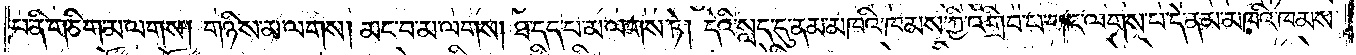པ་ནི་གཅིག་མ་ལགས། གཉིས་མ་ལགས། མང་བ་མ་ལགས། ཐ་དད་པ་མ་ལགས་ཏེ། དེའི་སླད་དུ་ནམ་མཁའི་ཁམས་ཀྱི་འགྲིབ་པ་གང་ལགས་པ་དེ་ནམ་མཁའི་ཁམས་
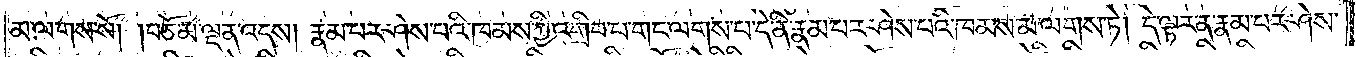མ་ལགས་སོ། །བཅོམ་ལྡན་འདས། རྣམ་པར་ཤེས་པའི་ཁམས་ཀྱི་འགྲིབ་པ་གང་ལགས་པ་དེ་ནི་རྣམ་པར་ཤེས་པའི་ཁམས་མ་ལགས་ཏེ། དེ་ལྟར་ན་རྣམ་པར་ཤེས་
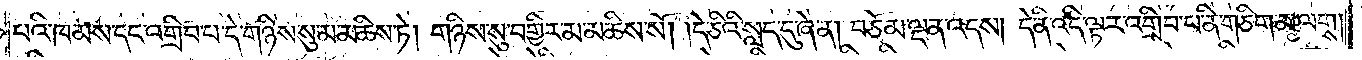པའི་ཁམས་དང་འགྲིབ་པ་དེ་གཉིས་སུ་མ་མཆིས་ཏེ། གཉིས་སུ་བགྱིར་མ་མཆིས་སོ། །དེ་ཅིའི་སླད་དུ་ཞེ་ན། བཅོམ་ལྡན་འདས། དེ་ནི་འདི་ལྟར་འགྲིབ་པ་ནི་གཅིག་མ་ལགས།
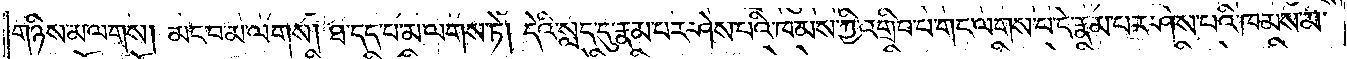གཉིས་མ་ལགས། མང་བ་མ་ལགས། ཐ་དད་པ་མ་ལགས་ཏེ། དེའི་སླད་དུ་རྣམ་པར་ཤེས་པའི་ཁམས་ཀྱི་འགྲིབ་པ་གང་ལགས་པ་དེ་རྣམ་པར་ཤེས་པའི་ཁམས་མ་
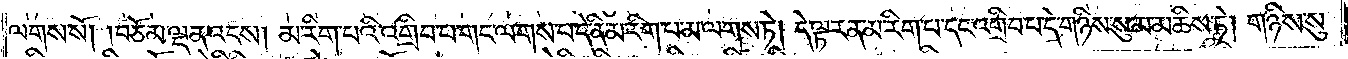ལགས་སོ། །བཅོམ་ལྡན་འདས། མ་རིག་པའི་འགྲིབ་པ་གང་ལགས་པ་དེ་ནི་མ་རིག་པ་མ་ལགས་ཏེ། དེ་ལྟར་ན་མ་རིག་པ་དང་འགྲིབ་པ་དེ་གཉིས་སུ་མ་མཆིས་ཏེ། གཉིས་སུ་
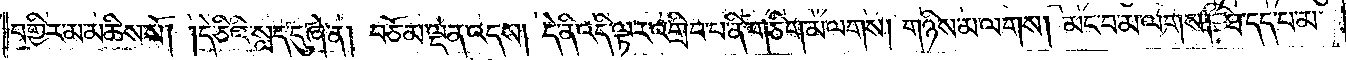བགྱིར་མ་མཆིས་སོ། །དེ་ཅིའི་སླད་དུ་ཞེ་ན། བཅོམ་ལྡན་འདས། དེ་ནི་འདི་ལྟར་འགྲིབ་པ་ནི་གཅིག་མ་ལགས། གཉིས་མ་ལགས། མང་བ་མ་ལགས། ཐ་དད་པ་མ་
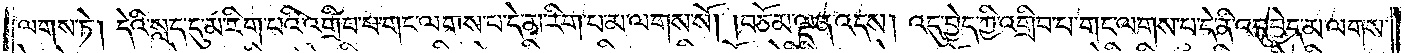ལགས་ཏེ། དེའི་སླད་དུ་མ་རིག་པའི་འགྲིབ་པ་གང་ལགས་པ་དེ་མ་རིག་པ་མ་ལགས་སོ། །བཅོམ་ལྡན་འདས། འདུ་བྱེད་ཀྱི་འགྲིབ་པ་གང་ལགས་པ་དེ་ནི་འདུ་བྱེད་མ་ལགས་
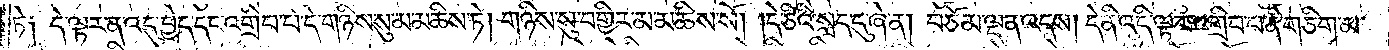ཏེ༑ དེ་ལྟར་ན་འདུ་བྱེད་དང་འགྲིབ་པ་དེ་གཉིས་སུ་མ་མཆིས་ཏེ། གཉིས་སུ་བགྱིར་མ་མཆིས་སོ། །དེ་ཅིའི་སླད་དུ་ཞེ་ན། བཅོམ་ལྡན་འདས། དེ་ནི་འདི་ལྟར་འགྲིབ་པ་ནི་གཅིག་མ་
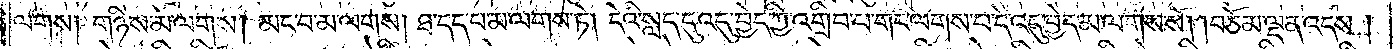ལགས། གཉིས་མ་ལགས། མང་བ་མ་ལགས། ཐ་དད་པ་མ་ལགས་ཏེ། དེའི་སླད་དུ་འདུ་བྱེད་ཀྱི་འགྲིབ་པ་གང་ལགས་པ་དེ་འདུ་བྱེད་མ་ལགས་སོ། །བཅོམ་ལྡན་འདས།
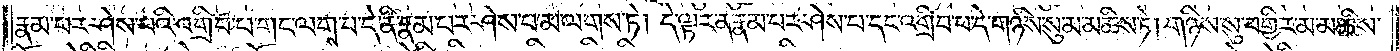རྣམ་པར་ཤེས་པའི་འགྲིབ་པ་གང་ལགས་པ་དེ་ནི་རྣམ་པར་ཤེས་པ་མ་ལགས་ཏེ། དེ་ལྟར་ན་རྣམ་པར་ཤེས་པ་དང་འགྲིབ་པ་དེ་གཉིས་སུ་མ་མཆིས་ཏེ་གཉིས་སུ་བགྱིར་མ་མཆིས་
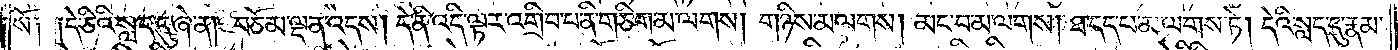སོ༑ ༑དེ་ཅིའི་སླད་དུ་ཞེ་ན། བཅོམ་ལྡན་འདས། དེ་ནི་འདི་ལྟར་འགྲིབ་པ་ནི་གཅིག་མ་ལགས། གཉིས་མ་ལགས། མང་བ་མ་ལགས། ཐ་དད་པ་མ་ལགས་ཏེ། དེའི་སླད་དུ་རྣམ་
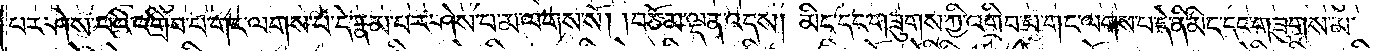པར་ཤེས་པའི་འགྲིབ་པ་གང་ལགས་པ་དེ་རྣམ་པར་ཤེས་པ་མ་ལགས་སོ། །བཅོམ་ལྡན་འདས། མིང་དང་གཟུགས་ཀྱི་འགྲིབ་པ་གང་ལགས་པ་དེ་ནི་མིང་དང་གཟུགས་མ་
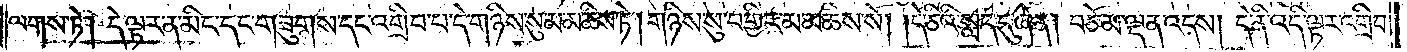ལགས་ཏེ། དེ་ལྟར་ན་མིང་དང་གཟུགས་དང་འགྲིབ་པ་དེ་གཉིས་སུ་མ་མཆིས་ཏེ། གཉིས་སུ་བགྱིར་མ་མཆིས་སོ། །དེ་ཅིའི་སླད་དུ་ཞེ་ན། བཅོམ་ལྡན་འདས། དེ་ནི་འདི་ལྟར་འགྲིབ་
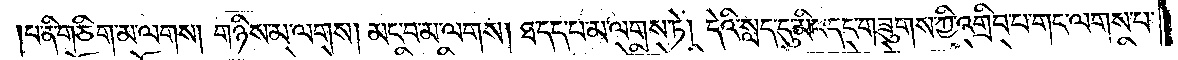པ་ནི་གཅིག་མ་ལགས། གཉིས་མ་ལགས། མང་བ་མ་ལགས། ཐ་དད་པ་མ་ལགས་ཏེ། དེའི་སླད་དུ་མིང་དང་གཟུགས་ཀྱི་འགྲིབ་པ་གང་ལགས་པ་
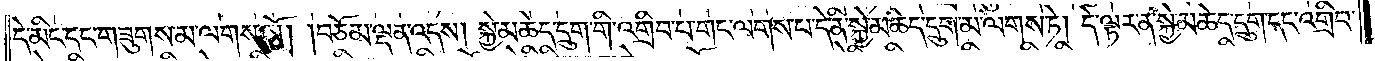དེ་མིང་དང་གཟུགས་མ་ལགས་སོ། །བཅོམ་ལྡན་འདས། སྐྱེ་མཆེད་དྲུག་གི་འགྲིབ་པ་གང་ལགས་པ་དེ་ནི་སྐྱེ་མཆེད་དྲུག་མ་ལགས་ཏེ། དེ་ལྟར་ན་སྐྱེ་མཆེད་དྲུག་དང་འགྲིབ་
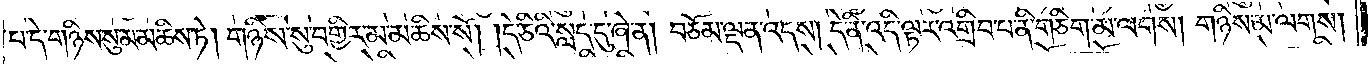པ་དེ་གཉིས་སུ་མ་མཆིས་ཏེ། གཉིས་སུ་བགྱིར་མ་མཆིས་སོ། །དེ་ཅིའི་སླད་དུ་ཞེ་ན། བཅོམ་ལྡན་འདས། དེ་ནི་འདི་ལྟར་འགྲིབ་པ་ནི་གཅིག་མ་ལགས། གཉིས་མ་ལགས།
